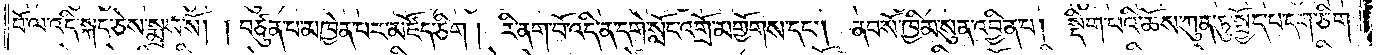བོ་ལ་འདི་སྐད་ཅེས་སྨྲས་སོ། །བཙུན་པ་མཁྱེན་པར་མཛོད་ཅིག། རི་ནག་པོ་འདི་ན་དགེ་སློང་འགྲོ་མགྱོགས་དང༌། ནབ་སོ་ཁྱིམ་སུན་འབྱིན་པ། སྡིག་པའི་ཆོས་ཀུན་ཏུ་སྤྱོད་པ་དག་ཅིག་
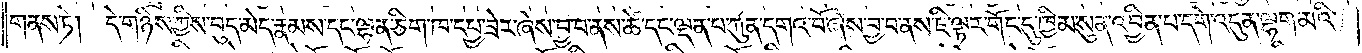གནས་ཏེ། དེ་གཉིས་ཀྱིས་བུད་མེད་རྣམས་དང་ལྷན་ཅིག་ཁ་དཔྱ་ཟེར་ཞེས་བྱ་བ་ནས་ཚེ་དང་ལྡན་པ་ཀུན་དགའ་བོ་ཞེས་བྱ་བ་ནས་ཇི་ལྟར་གོང་དུ་ཁྱིམ་སུན་འབྱིན་པ་དགེ་འདུན་ལྷག་མའི་
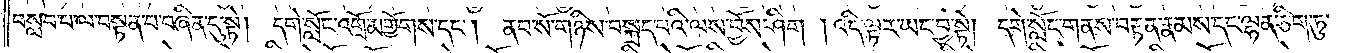བསླབ་པ་ལ་བསྟན་པ་བཞིན་དུ་སྟེ། དགེ་སློང་འགྲོ་མགྱོགས་དང༌། ནབ་སོ་གཉིས་བསྐྲད་པའི་ལས་བྱོས་ཤིག །འདི་ལྟར་ཡང་བྱ་སྟེ། དགེ་སློང་གནས་བརྟན་རྣམས་དང་ལྷན་ཅིག་ཏུ་
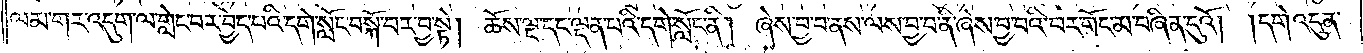ལམ་གར་འདུག་ལ་གླེང་བར་བྱེད་པའི་དགེ་སློང་བསྐོ་བར་བྱ་སྟེ། ཆོས་ལྔ་དང་ལྡན་པའི་དགེ་སློང་ནི། ཞེས་བྱ་བ་ནས་ལས་བྱ་བ་ནི་ཞེས་བྱ་བའི་བར་གོང་མ་བཞིན་དུའོ། །དགེ་འདུན་
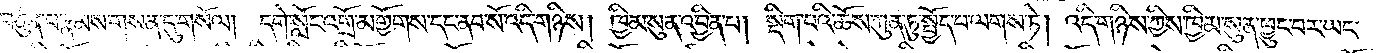བཙུན་པ་རྣམས་གསན་དུ་གསོལ། དགེ་སློང་འགྲོ་མགྱོགས་དང་ནབ་སོ་འདི་གཉིས། ཁྱིམ་སུན་འབྱིན་པ། སྡིག་པའི་ཆོས་ཀུན་ཏུ་སྤྱོད་པ་ལགས་ཏེ། འདི་གཉིས་ཀྱིས་ཁྱིམ་སུན་ཕྱུང་བར་ཡང་
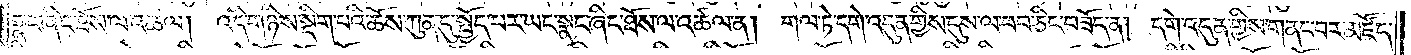སྣང་ཞིང་ཐོས་ལ་འཚལ། འདི་གཉིས་སྡིག་པའི་ཆོས་ཀུན་དུ་སྤྱོད་པར་ཡང་སྣང་ཞིང་ཐོས་ལ་འཚལ་ན། གལ་ཏེ་དགེ་འདུན་གྱིས་དུས་ལ་བབ་ཅིང་བཟོད་ན། དགེ་འདུན་གྱིས་གནང་བར་མཛོད་
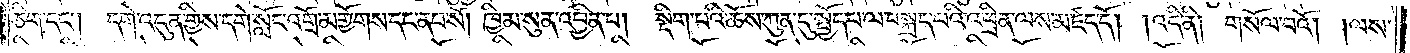ཅིག་དང༌། དགེ་འདུན་གྱིས་དགེ་སློང་འགྲོ་མགྱོགས་དང་ནབ་སོ། ཁྱིམ་སུན་འབྱིན་པ། སྡིག་པའི་ཆོས་ཀུན་དུ་སྤྱོད་པ་ལ་བསྐྲད་པའི་འཕྲིན་ལས་མཛད་དོ། །འདི་ནི། གསོལ་བའོ། །ལས་
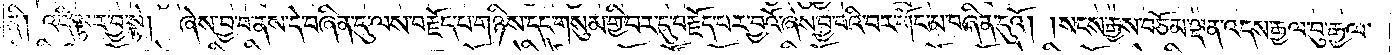ནི། འདི་ལྟར་བྱ་སྟེ། ཞེས་བྱ་བ་ནས་དེ་བཞིན་དུ་ལས་བརྗོད་པ་གཉིས་དང་གསུམ་གྱི་བར་དུ་བརྗོད་པར་བྱའོ་ཞེས་བྱ་བའི་བར་གོང་མ་བཞིན་དུའོ།    །སངས་རྒྱས་བཅོམ་ལྡན་འདས་རྒྱལ་བུ་རྒྱལ་
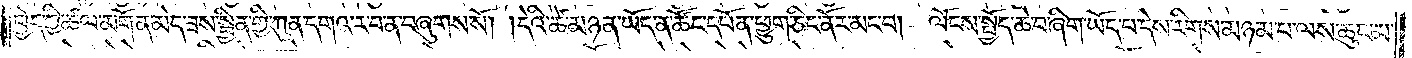བྱེད་ཀྱི་ཚལ་མགོན་མེད་ཟས་སྦྱིན་གྱི་ཀུན་དགའ་ར་བ་ན་བཞུགས་སོ། །དེའི་ཚེ་མཉན་ཡོད་ན་ཚོང་དཔོན་ཕྱུག་ཅིང་ནོར་མང་བ། ལོངས་སྤྱོད་ཆེ་བ་ཞིག་ཡོད་པ་དེས་རིགས་མཉམ་པ་ལས་ཆུང་མ་
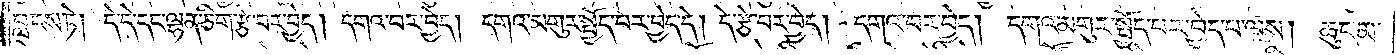བླངས་ཏེ། དེ་དེ་དང་ལྷན་ཅིག་རྩེ་བར་བྱེད། དགའ་བར་བྱེད། དགའ་མགུར་སྤྱོད་པར་བྱེད་དེ། དེ་རྩེ་བར་བྱེད། དགའ་བར་བྱེད། དགའ་མགུར་སྤྱོད་པར་བྱེད་པ་ལས། ཆུང་མ་
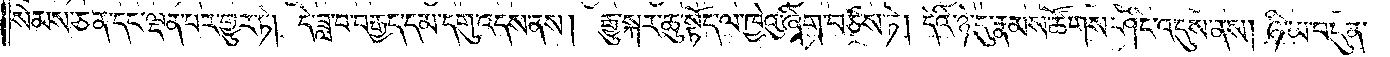སེམས་ཅན་དང་ལྡན་པར་གྱུར་ཏེ། དེ་ཟླ་བ་བརྒྱད་དམ་དགུ་འདས་ནས། རྒྱུ་སྐར་ཆུ་སྟོད་ལ་ཁྱེའུ་ཞིག་བཙས་ཏེ། དེའི་ཉེ་དུ་རྣམས་ཚོགས་ཤིང་འདུས་ནས། ཉི་མ་བདུན་
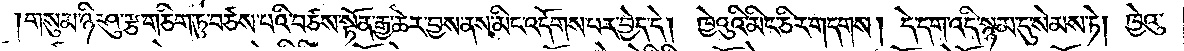གསུམ་ཉི་ཤུ་རྩ་གཅིག་ཏུ་བཙས་པའི་བཙས་སྟོན་རྒྱ་ཆེར་བྱས་ནས་མིང་འདོགས་པར་བྱེད་དེ། ཁྱེའུའི་མིང་ཅིར་གདགས། དེ་དག་འདི་སྙམ་དུ་སེམས་ཏེ། ཁྱེའུ་
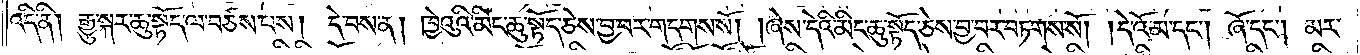འདི་ནི། རྒྱུ་སྐར་ཆུ་སྟོད་ལ་བཙས་པས། དེ་བས་ན། ཁྱེའུའི་མིང་ཆུ་སྟོད་ཅེས་བྱ་བར་གདགས་སོ། །ཞེས་དེའི་མིང་ཆུ་སྟོད་ཅེས་བྱ་བར་བཏགས་སོ། །དེ་འོ་མ་དང༌། ཞོ་དང༌། མར་
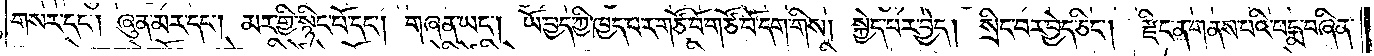གསར་དང༌། ཞུན་མར་དང༌། མར་གྱི་སྙིང་པོ་དང༌། གཞན་ཡང༌། ཡོ་བྱད་ཀྱི་ཁྱད་པར་གཙོ་བོ་གཙོ་བོ་དག་གིས། སྐྱེད་པར་བྱེད། སྲིང་བར་བྱེད་ཅིང༌། རྫིང་ན་གནས་པའི་པདྨ་བཞིན་
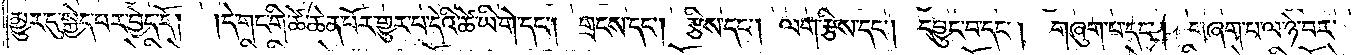མྱུར་དུ་སྐྱེད་པར་བྱེད་དོ། །དེ་གང་གི་ཚེ་ཆེན་པོར་གྱུར་པ་དེའི་ཚེ་ཡི་གེ་དང༌། གྲངས་དང༌། རྩིས་དང༌། ལག་རྩིས་དང༌། དབྱུང་བ་དང༌། གཞུག་པ་དང༌། གཞག་པ་ལ་ཉེ་བར་
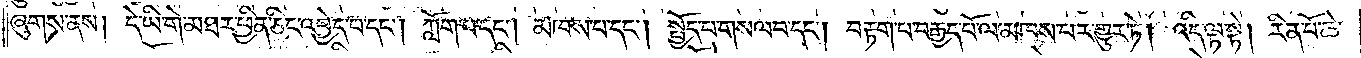ཞུགས་ནས། དེ་ཡི་གེ་མཐར་ཕྱིན་ཅིང་འབྱེད་པ་དང༌། ཀློག་པ་དང༌། མཁས་པ་དང༌། སྤྱོད་པ་གསལ་བ་དང༌། བརྟག་པ་བརྒྱད་པོ་ལ་མཁས་པར་གྱུར་ཏེ། འདི་ལྟ་སྟེ། རིན་པོ་ཆེ་
